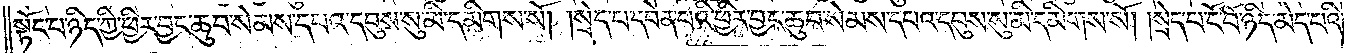སྟོང་པ་ཉིད་ཀྱི་ཕྱིར་བྱང་ཆུབ་སུ་མི་དམིགས་སོ། །སྲེད་པ་སྟོང་པ་ཉིད་ཀྱི་ཕྱིར་བྱང་ཆུབ་དབེན་པའི་ཕྱིར་བྱང་ཆུབ་སེམས་དཔའ་དབུས་སུ་མི་དམིགས་སོ། །སྲེད་པ་ངོ་བོ་ཉིད་མེད་པའི་
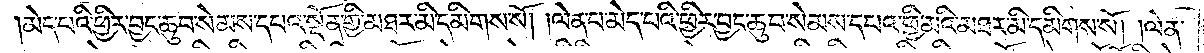མེད་པའི་ཕྱིར་བྱང་ཆུབ་སེམས་དཔའ་སྔོན་གྱི་མཐར་མི་དམིགས་སོ། །ལེན་པ་མེད་པའི་ཕྱིར་བྱང་ཆུབ་སེམས་དཔའ་ཕྱི་མའི་མཐར་མི་དམིགས་སོ། །ལེན་
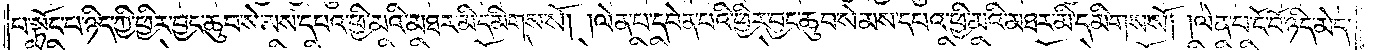པ་སྟོང་པ་ཉིད་ཀྱི་ཕྱིར་བྱང་ཆུབ་སེམས་དཔའ་ཕྱི་མའི་མཐར་མི་དམིགས་སོ། །ལེན་པ་དབེན་པའི་ཕྱིར་བྱང་ཆུབ་སེམས་དཔའ་ཕྱི་མའི་མཐར་མི་དམིགས་སོ། །ལེན་པ་ངོ་བོ་ཉིད་མེད་
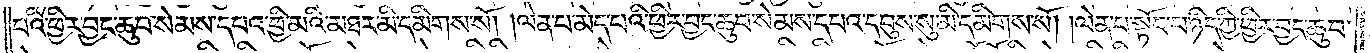པའི་ཕྱིར་བྱང་ཆུབ་སེམས་དཔའ་ཕྱི་མའི་མཐར་མི་དམིགས་སོ། །ལེན་པ་མེད་པའི་ཕྱིར་བྱང་ཆུབ་སེམས་དཔའ་དབུས་སུ་མི་དམིགས་སོ། །ལེན་པ་སྟོང་པ་ཉིད་ཀྱི་ཕྱིར་བྱང་ཆུབ་
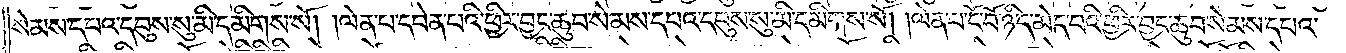སེམས་དཔའ་དབུས་སུ་མི་དམིགས་སོ། །ལེན་པ་དབེན་པའི་ཕྱིར་བྱང་ཆུབ་སེམས་དཔའ་དབུས་སུ་མི་དམིགས་སོ། །ལེན་པ་ངོ་བོ་ཉིད་མེད་པའི་ཕྱིར་བྱང་ཆུབ་སེམས་དཔའ་
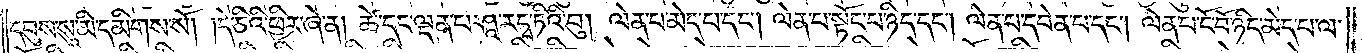དབུས་སུ་མི་དམིགས་སོ། །དེ་ཅིའི་ཕྱིར་ཞེ་ན། ཚེ་དང་ལྡན་པ་ཤཱ་རདྭ་ཏིའི་བུ། ལེན་པ་མེད་པ་དང༌། ལེན་པ་སྟོང་པ་ཉིད་དང༌། ལེན་པ་དབེན་པ་དང༌། ལེན་པ་ངོ་བོ་ཉིད་མེད་པ་ལ་
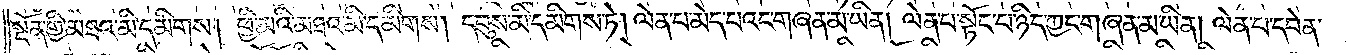སྔོན་གྱི་མཐའ་མི་དམིགས། ཕྱི་མའི་མཐའ་མི་དམིགས། དབུས་མི་དམིགས་ཏེ། ལེན་པ་མེད་པའང་གཞན་མ་ཡིན། ལེན་པ་སྟོང་པ་ཉིད་ཀྱང་གཞན་མ་ཡིན། ལེན་པ་དབེན་
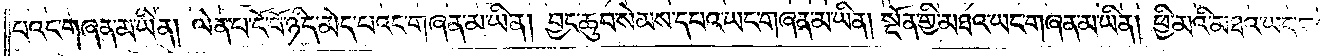པའང་གཞན་མ་ཡིན། ལེན་པ་ངོ་བོ་ཉིད་མེད་པའང་གཞན་མ་ཡིན། བྱང་ཆུབ་སེམས་དཔའ་ཡང་གཞན་མ་ཡིན། སྔོན་གྱི་མཐའ་ཡང་གཞན་མ་ཡིན། ཕྱི་མའི་མཐའ་ཡང་གཞན་
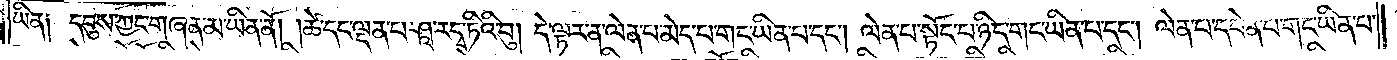ཡིན། དབུས་ཀྱང་གཞན་མ་ཡིན་ནོ། །ཚེ་དང་ལྡན་པ་ཤཱ་རདྭ་ཏིའི་བུ། དེ་ལྟར་ན་ལེན་པ་མེད་པ་གང་ཡིན་པ་དང༌། ལེན་པ་སྟོང་པ་ཉིད་གང་ཡིན་པ་དང༌། ལེན་པ་དབེན་པ་གང་ཡིན་པ་
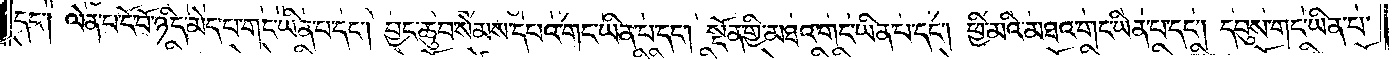དང༌། ལེན་པ་ངོ་བོ་ཉིད་མེད་པ་གང་ཡིན་པ་དང༌། བྱང་ཆུབ་སེམས་དཔའ་གང་ཡིན་པ་དང༌། སྔོན་གྱི་མཐའ་གང་ཡིན་པ་དང༌། ཕྱི་མའི་མཐའ་གང་ཡིན་པ་དང༌། དབུས་གང་ཡིན་པ་
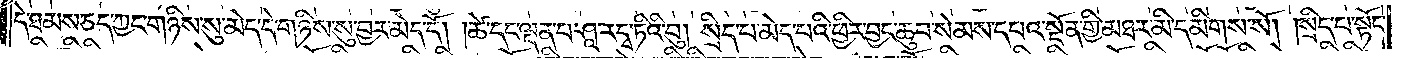དེ་ཐམས་ཅད་ཀྱང་གཉིས་སུ་མེད་དེ་གཉིས་སུ་བྱར་མེད་དོ། །ཚེ་དང་ལྡན་པ་ཤཱ་རདྭ་ཏིའི་བུ། སྲིད་པ་མེད་པའི་ཕྱིར་བྱང་ཆུབ་སེམས་དཔའ་སྔོན་གྱི་མཐར་མི་དམིགས་སོ། །སྲིད་པ་སྟོང་
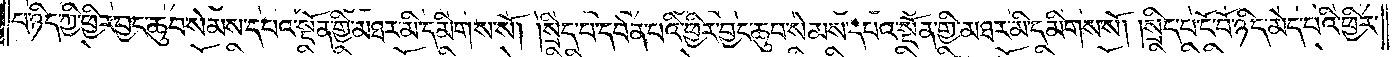པ་ཉིད་ཀྱི་ཕྱིར་བྱང་ཆུབ་སེམས་དཔའ་སྔོན་གྱི་མཐར་མི་དམིགས་སོ། །སྲིད་པ་དབེན་པའི་ཕྱིར་བྱང་ཆུབ་སེམས་དཔའ་སྔོན་གྱི་མཐར་མི་དམིགས་སོ། །སྲིད་པ་ངོ་བོ་ཉིད་མེད་པའི་ཕྱིར་
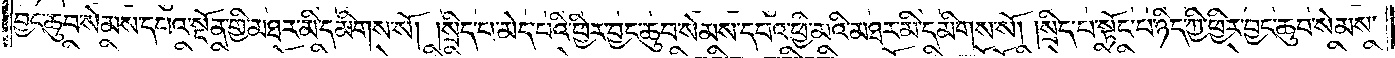བྱང་ཆུབ་སེམས་དཔའ་སྔོན་གྱི་མཐར་མི་དམིགས་སོ། །སྲིད་པ་མེད་པའི་ཕྱིར་བྱང་ཆུབ་སེམས་དཔའ་ཕྱི་མའི་མཐར་མི་དམིགས་སོ། །སྲིད་པ་སྟོང་པ་ཉིད་ཀྱི་ཕྱིར་བྱང་ཆུབ་སེམས་
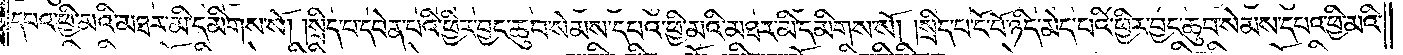དཔའ་ཕྱི་མའི་མཐར་མི་དམིགས་སོ། སྲིད་པ་དབེན་པའི་ཕྱིར་བྱང་ཆུབ་སེམས་དཔའ་ཕྱི་མའི་མཐར་མི་དམིགས་སོ། །སྲིད་པ་ངོ་བོ་ཉིད་མེད་པའི་ཕྱིར་བྱང་ཆུབ་སེམས་དཔའ་ཕྱི་མའི་
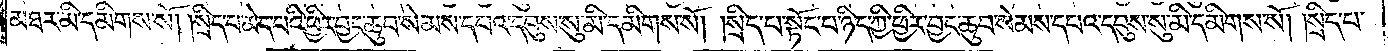མཐར་མི་དམིགས་སོ། །སྲིད་པ་མེད་པའི་ཕྱིར་བྱང་ཆུབ་སེམས་དཔའ་དབུས་སུ་མི་དམིགས་སོ། །སྲིད་པ་སྟོང་པ་ཉིད་ཀྱི་ཕྱིར་བྱང་ཆུབ་སེམས་དཔའ་དབུས་སུ་མི་དམིགས་སོ། །སྲིད་པ་
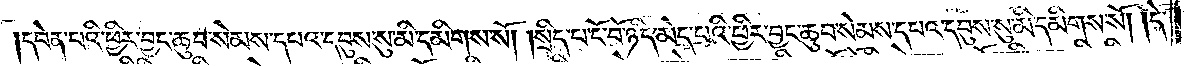དབེན་པའི་ཕྱིར་བྱང་ཆུབ་སེམས་དཔའ་དབུས་སུ་མི་དམིགས་སོ། །སྲིད་པ་ངོ་བོ་ཉིད་མེད་པའི་ཕྱིར་བྱང་ཆུབ་སེམས་དཔའ་དབུས་སུ་མི་དམིགས་སོ། །དེ་
